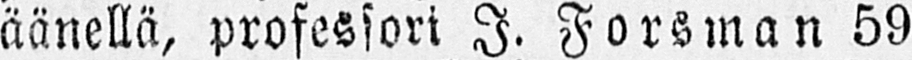äänellä, professori I. Forsman 59
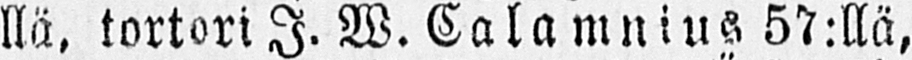llä. tortori J. W. Calamnius 57:llä,
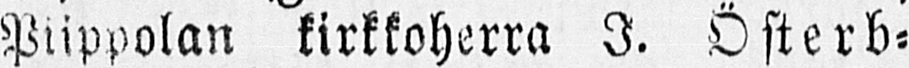Piippolan kirkkoherra I. Österb-
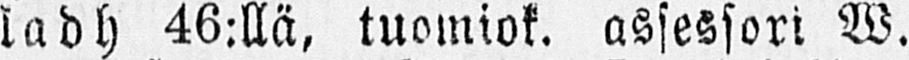ladh 46:llä, tuomiok. assessori W.
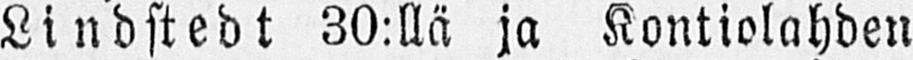Lindstedt 30:llä ja Kontiolahden
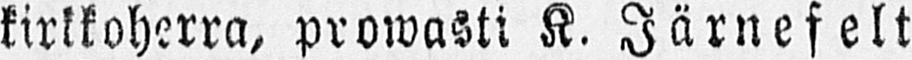kirkkoherra, prowasti K. Järnefelt
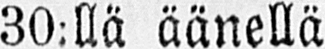30:llä äänellä
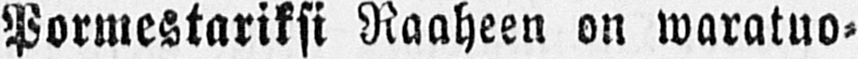Pormestariksi Raaheen on waratuo-
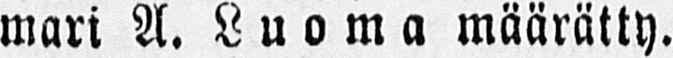mari A. Luoma määrätty.
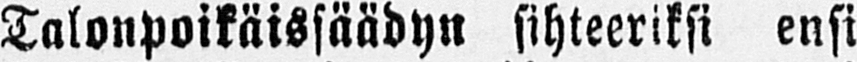Talonpoikäissäädyn sihteeriksi ensi
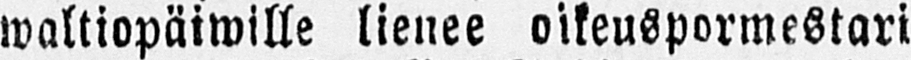waltiopäiwille lienee oikeuspormestari
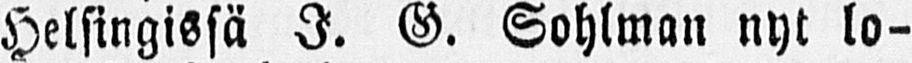Helsingissä I. G. Sohlman nyt lo-
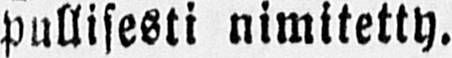pullisesti nimitetty.
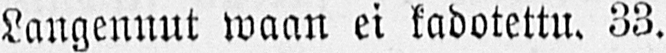Langennut waan ei kadotettu. 33.
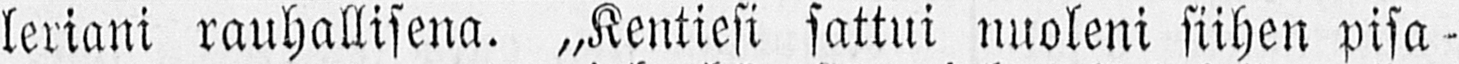leriani rauhallisena. „Kentiesi sattui nuoleni siihen pisa-
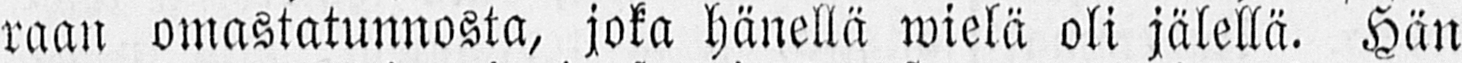raan omastatunnosta, joka hänellä wielä oli jälellä. Hän
